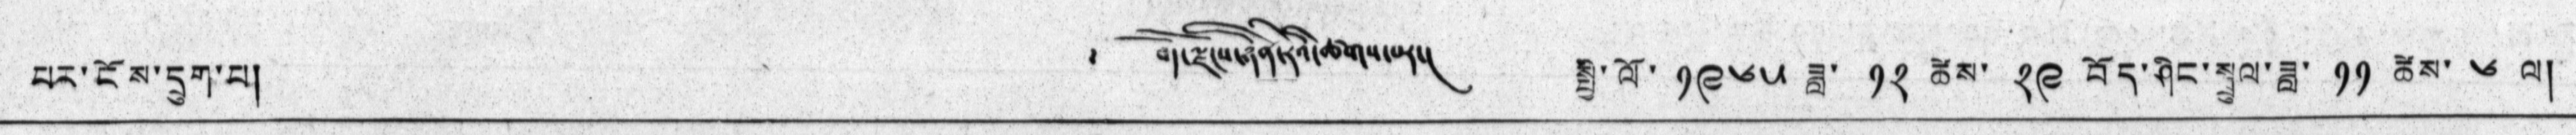པར་ངོས་དྲུག་པ། ༄༅། བོད་ལྗོངས་ཉིན་རེའི་ཚགས་པར། སྤྱི་ལོ་ ༡༩༦༥ ཟླ་ ༡༢ ཚེས་ ༢༩ བོད་ཤིང་སྦྲུལ་ཟླ་ ༡༡ ཚེས་ ༦ ལ།
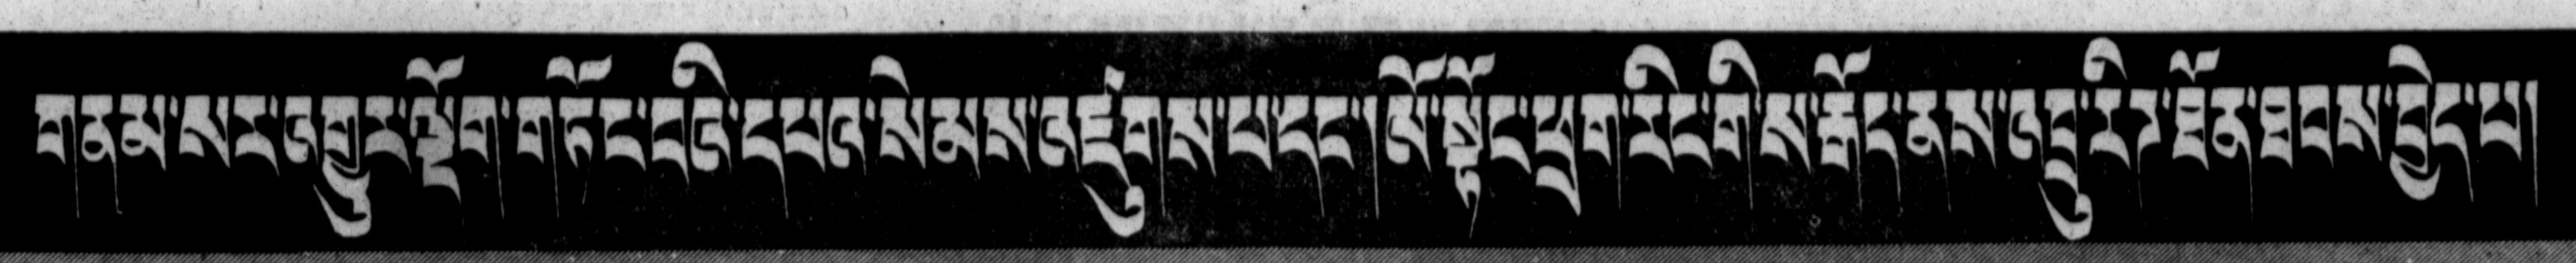གནམ་སར་འགྱུར་ལྡོག་གཏོང་བའི་དཔའ་སེམས་འཛུགས་པ་དང་། ལོ་སྟོང་ཕྲག་རིང་གི་ས་རྒོད་ནས་འབྲུ་རིཌ་ཐོན་ཐབས་བྱེད་པ།
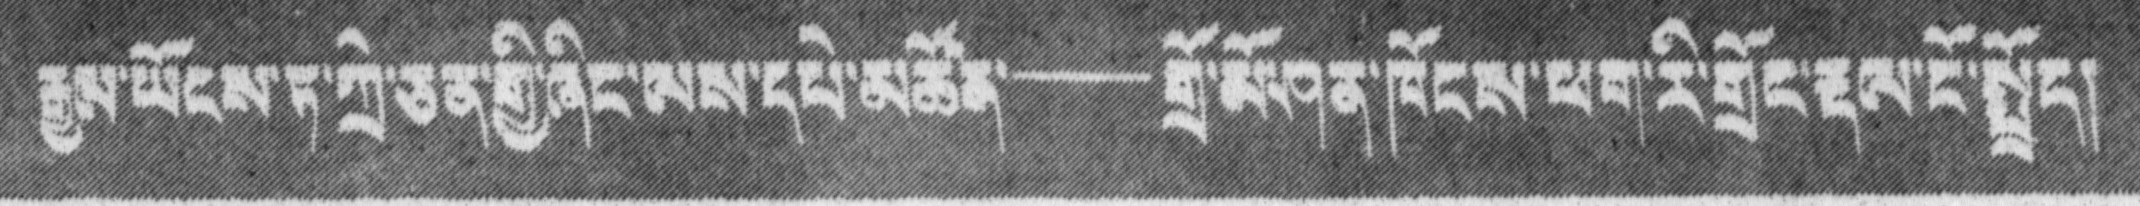རྒྱལ་ཡོངས་ཏ་ཀྲེ་ཅན་གྱི་ཞིང་ལས་དཔེ་མཚོན་ — གྲོ་མོ་ཤན་ཁོངས་ཕག་རི་གྲོང་རྡལ་ངོ་སྤྲོད།
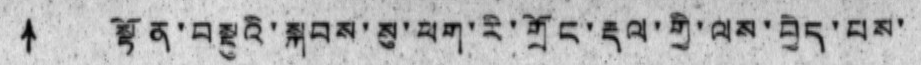↑ སྟོན་བསྡུའི་སྐབས་སུ་ཕག་རི་གྲོང་རྡལ་གྱི་ལས་བྱེད་པས་
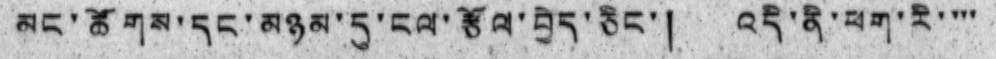མང་ཚོགས་དང་མཉམ་དུ་ངལ་རྩོལ་བྱེད་ཅིང་། འདི་ནི་ཕག་རི་་་་
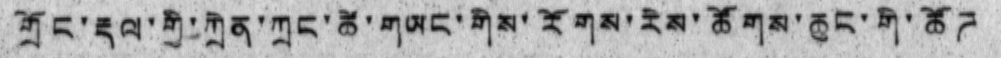གྲོང་རྡལ་གྱི་ཀྲེན་ཀྲང་ཚེ་གཡང་གིས་རོགས་རེས་ཚོགས་ཆུང་གི་ཚོཌ
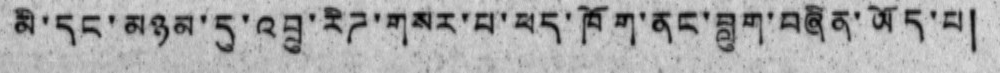མི་དང་མཉམ་དུ་འབྲུ་རིཌ་གསར་པ་ཕད་ཁོག་ནང་བླུག་བཞིན་ཡོད་པ།
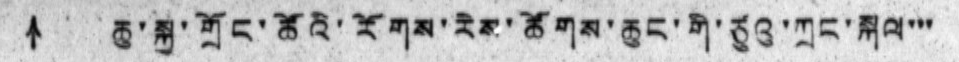↑ ཆུ་སྐྱ་གྲོང་ཚོའི་རོགས་རེས་ཚོགས་ཆུང་གི་ཙུའུ་ཀྲང་སྐལ་་་
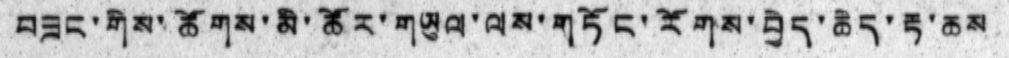བཟང་གིས་ཚོགས་མི་ཚོར་གཡུལ་ལས་གཏོང་རོགས་བྱེད་ཆེད་རྟ་ཆས
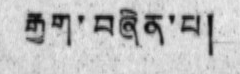རྒྱག་བཞིན་པ།
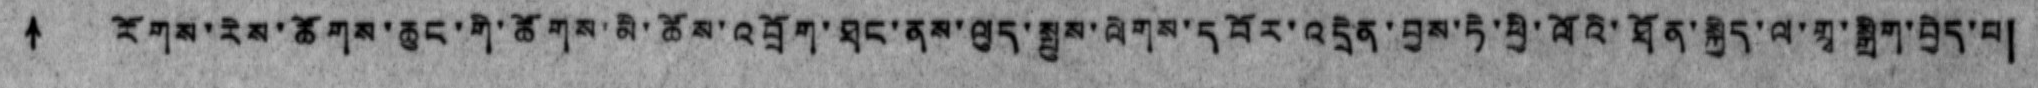↑ རོགས་རེས་ཚོགས་ཆུང་གི་ཚོགས་མི་ཚོས་འབྲོག་ཐང་ནས་ལུད་སྤུས་ལེགས་དབོར་འདྲེན་བྱས་ཏེ་ཕྱི་ལོའི་ཐོན་སྐྱེད་ལ་གྲྭ་སྒྲིག་བྱེད་པ།
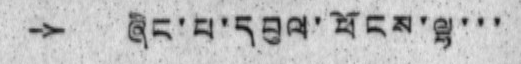→ ཞིང་པ་དབུལ་ཕོངས་ལྷ་་་
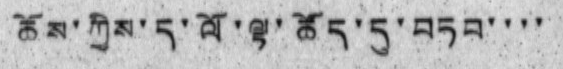ཆོས་ཀྱིས་ད་ལོ་ལྟ་ཚོད་དུ་བཏབ་་་་
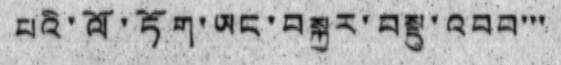པའི་ལོ་ཏོག་ཡང་བསྐྱར་བསྡུ་འབབ་་་
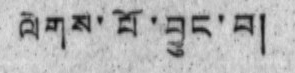ལེགས་པོ་བྱུང་བ།
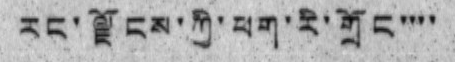རང་ལྗོངས་ཀྱི་ཕག་རི་གྲོང་་་་
